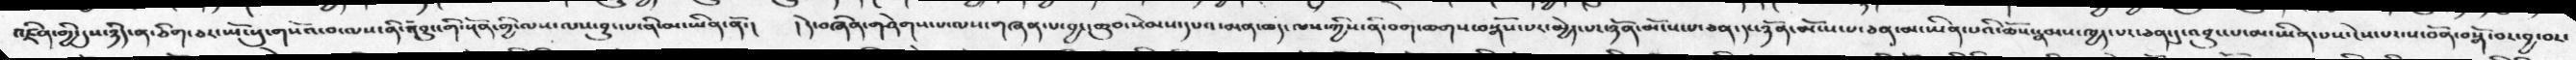འཛིན་གྱི་དུས་ཉིད་ན་ཅིག་ཅར་ཡོངསུ་གསོའ་བ་ལས་ནི་འབྱུང་གི་སྔོན་གྱི་ལས་ལས་བྱུང་པ་ནི་མ་ཡིན་ནོ་།   ། དེ་བཞིན་གཤེགས་པ་ལས་གཞན་པ་བྱང་ཆུབ་སེམས་དཔའ་མན་ཆད་ལས་ཀྱིས་ནི་བག་ཆགས་བསྒོས་པར་མྱེད་པར་ཉོན་མོངས་པ་ཅན་དང་ཉོན་མོངས་པ་ཅན་མ་ཡིན་པའི་ཆོས་རྣམས་ཁྱད་པར་ཅན་དུ་འབྱུང་པ་མ་ཡིན་པས་ངེས་པར་ས་བོན་བསྒོ་བར་བྱ་བར་
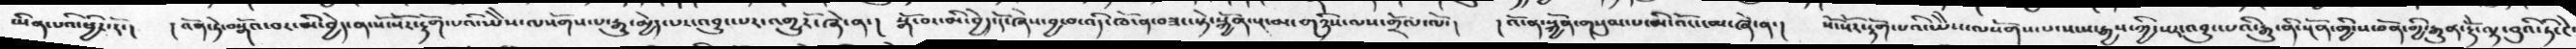ཡིན་པའི་ཕྱིར་རོ་།  །འོན་ཏེ་བསྒོའ་བར་མི་བྱེད་ན་སོ་སོར་རྟོགཔའི་ཡཻས་ལསོགས་པ་རྒྱུ་མྱེད་པར་འབྱུང་པར་འགྱུརོ་ཞེ་ན་།  །སྒོ་བར་མི་བྱེད་དོ་ཞེས་བྱ་བ་འདི་ཁོ་ན་བཟང་སྟེ་སྐྱོན་སྔ་མ་གཉིས་ལས་གྲོལ་ལོ་།   །འོ་ན་སྐྱོན་གསུམ་པ་མི་འོང་ངམ་ཞེ་ན་།  སོ་སོར་རྟོག་པའི་ཡཻས་ལསོགས་པ་སངས་རྒྱས་ཀྱི་སར་འབྱུང་པའི་རྒྱུ་ནི་སྔོན་གྱི་ས་བོན་གྱི་རྒྱུན་རྡོེ་ལྟ་བུའི་ཏི་ངེ་
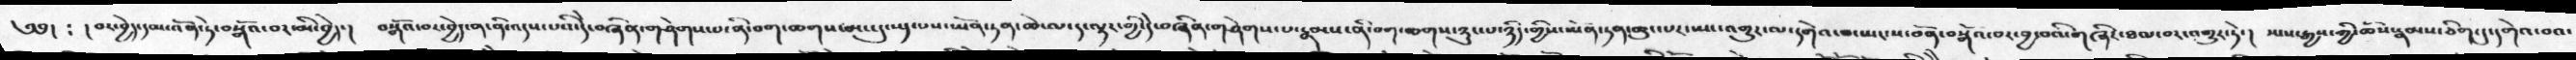༄༅།  ༴ །བར་བྱེད་དམ་འོན་ཏེ་བསྒོའ་བར་མི་བྱེད་།  བསྒོའ་བར་བྱེད་ན་ནི་འདས་པའི་དེ་བཞིན་གཤེགས་པ་ནི་བག་ཆགས་མང་དུ་སད་པས་ཡོན་ཏན་ཆེ་ལ་ད་ལྟར་གྱི་དེ་བཞིན་གཤེགས་པ་རྣམས་ནི་བག་ཆགས་ཉུང་པ་ཉིད་གྱིས་ཡོན་ཏན་ཆུང་པར་ཡང་འགྱུར་ལ་དགེའ་བ་ཡང་ས་བོན་བསྒོའ་བར་བྱ་བའི་གཞིར་ཐལ་བར་འགྱུར་ཏེ་།  སངས་རྒྱས་ཀྱི་ཆོས་རྣམས་ཅིག་དུ་དགེའ་བའ་
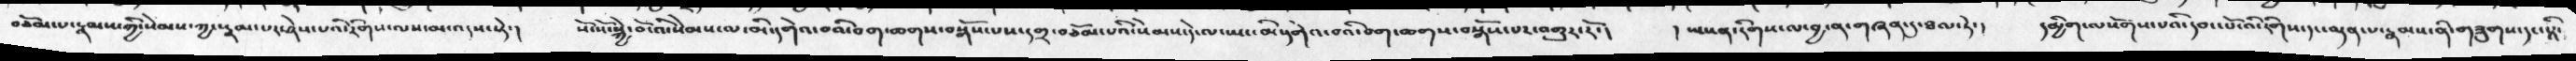བཅོམ་པ་རྣམས་ཀྱི་སེམས་ཀྱང་རྣམ་པར་ཤེས་པའི་རིགས་ལས་མ་འདས་སྟེ་།  སོ་སོ་སྐྱེ་བོ་འི་སེམས་ལ་མི་དགེའ་བའི་བག་ཆགས་བསྒོས་པས་དགྲ་བཅོམ་པའི་སེམས་དེ་ལ་ཡང་མི་དགེའ་བའི་བག་ཆགས་བསྒོས་པར་འགྱུར་རོ་།   །ཡང་ན་རིགས་ལ་བྱ་ན་གཞན་དུ་ཐལ་ཏེ་།  དམྱིག་ལསོགས་པའི་དབང་པོ་འི་རིགས་དང་ལྡན་པ་རྣམས་ནི་གཟུགས་དང་སྟི་
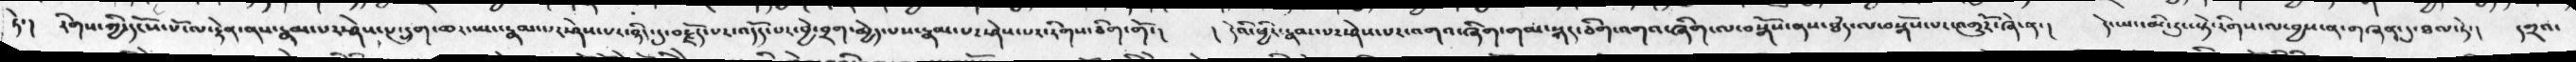ཏེ་།   རིགས་ཀྱི་དངོས་པོ་ལ་རྟེན་ནས་རྣམ་པར་ཤེས་པ་དྲུག་ཆར་ཡང་རྣམ་པར་ཤེས་པར་ཉིད་དུ་བརྗོད་པར་འདོད་པར་བྱེ་བྲག་མྱེད་པས་རྣམ་པར་ཤེས་པར་རིགས་ཅིག་གོ་།    །དེའི་ཕྱིར་རྣམ་པར་ཤེས་པར་འགའ་ཞིག་གམ་སྐད་ཅིག་འགའ་ཞིག་ལ་བསྒོས་ནས་ཐཾད་ལ་བསྒོས་པར་འགྱུརོ་ཞེ་ན་།  དེ་ཡང་མི་རུང་སྟེ་རིགས་ལ་བྱས་ན་གཞན་དུ་ཐལ་ཏེ་།  དགྲའ་
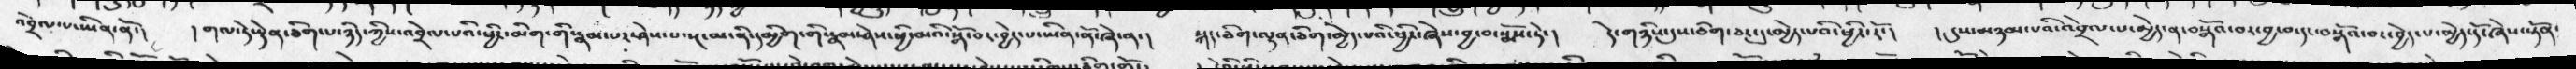འབྲེལ་པ་ཡིན་ནོ་།  །གལ་ཏེ་རྟེན་ཅིག་པ་ཉིད་ཀྱིས་འབྲེལ་པའི་ཕྱིར་མིག་གི་རྣམ་པར་ཤེས་པ་སྔ་མ་ནི་དམྱིག་གི་རྣམ་ཤེས་ཕྱི་མའི་སྒོ་བར་བྱེད་པ་ཡིན་ནོ་ཞེ་ན་།   སྐད་ཅིག་ལྷན་ཅིག་མྱེད་པའི་ཕྱིར་ཞེས་བྱ་བ་སྨོས་ཏེ་།  དེ་གཉིས་དུས་ཅིག་ཅར་དུ་མྱེད་པའི་ཕྱིར་རོ་།  །དུས་མཉམ་པའི་འབྲེལ་པ་མེད་ན་བསྒོའ་བར་བྱ་བ་དང་བསྒོའ་བར་བྱེད་པ་མྱེད་དོ་ཞེས་སྟོན་
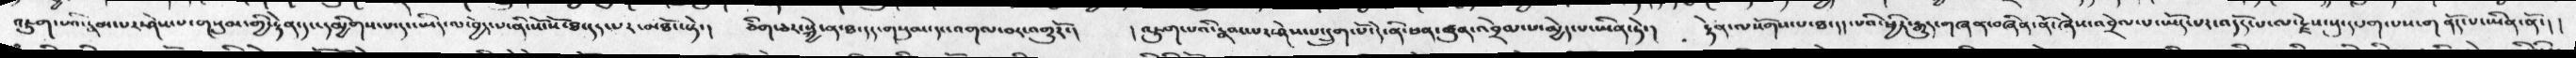འཇུག་པའི་རྣམ་པར་ཤེས་པ་གསུམ་གྱི་རྟེན་དང་དམྱིགས་པ་དང་ཡིད་ལ་བྱེད་པ་ནི་སོ་སོ་ཐ་དད་པར་མཐོང་སྟེ་།  ཅིག་ཅར་སྐྱེ་ན་ཐ་དད་གསུམ་དང་འགལ་བར་འགྱུརོ་།  །འཇུག་པའི་རྣམ་པར་ཤེས་པ་དྲུག་པོ་དེ་ནི་ཕན་ཚུན་འབྲེལ་པ་མྱེད་པ་ཡིན་ཏེ་།   རྟེན་ལསོགས་པ་ཐ་དད་པའི་ཕྱིར་རྒྱུད་གཞན་བཞིན་ནོ་ཞེས་འབྲེལ་པ་ཡོད་པར་འདོད་པ་ལ་རྗེས་སུ་དཔག་པས་གནོད་པ་ཡིན་ནོ་།།
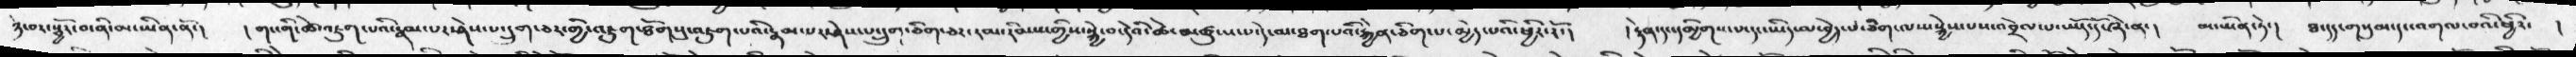ཉེ་བར་སྦྱོར་བ་ནི་མ་ཡིན་ནོ་།   །གང་གི་ཚེ་འཇུག་པའི་རྣམ་པར་ཤེས་པ་དྲུག་ཅར་གྱི་འཇུག་ཐོགསུ་འཇུག་པའི་རྣམ་པར་ཤེས་པ་དྲུག་ཅིག་ཅར་རམ་རིམས་གྱིས་སྐྱེ་བ་དེའི་ཚེ་མཚུངས་པ་དེ་མ་ཐག་པའི་རྐྱེན་ཅིག་པ་མྱེད་པའི་ཕྱིར་རོ་།   །རྟེན་དང་དམྱིགས་པ་དང་ཡིད་ལ་བྱེད་པ་ཅིག་ལས་སྐྱེས་པས་འབྲེལ་པ་ཡོད་དོ་ཞེ་ན་།  མ་ཡིན་ཏེ་།  ཐ་དད་གསུམ་དང་འགལ་བའི་ཕྱིར་  །
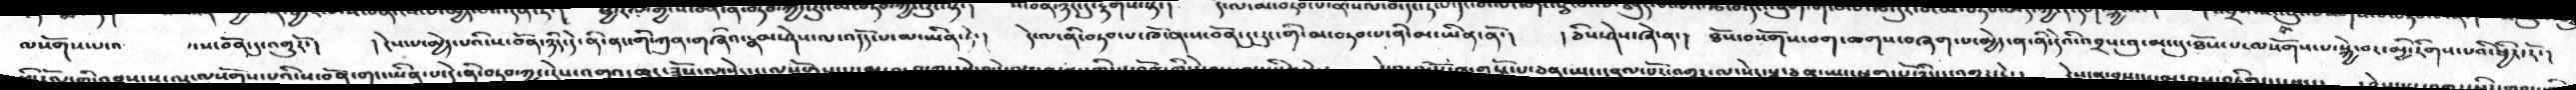ལ་སོགས་པ་འ    ་་ས་བོན་དུ་འགྱུརོ་།   །ངེས་པ་མྱེད་པའི་ས་བོན་ཉིད་དེ་ནི་ནང་གི་ཀུན་གཞིའ་རྣམ་ཤེས་ལ་འདོད་པ་མ་ཡིན་ཏེ་།   དེ་ལ་ནི་བཏབ་པ་ཁོ་ན་ས་བོན་དུ་རུང་གི་མ་བཏབ་པ་ཡིན་ནོ་།   །ཅིས་ཤེས་ཞེ་ན་།   ཐོས་བསོགས་བག་ཆགས་བཞག་པ་མྱེད་ན་ནི་དེའི་འབྲས་བུ་མང་དུ་ཐོས་པ་ལསོགས་པ་སྐྱེ་བར་མྱི་རིགས་པའི་ཕྱིར་རོ་།
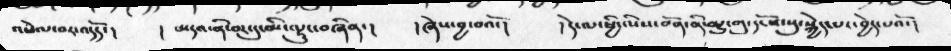འཕེལ་བར་འདོད་།   ། མདའ་ནི་བར་དུ་མི་ལྡུང་བཞིན་།   །ཞེས་བྱ་བའོ་།     །དེ་ལ་ཕྱི་འི་ས་བོན་ནི་མྱུ་གུ་དངོས་སུ་སྐྱེད་པར་བྱེད་པའོ་།
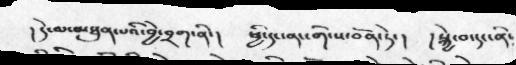།དེ་མ་མཐུན་པའི་བྱེ་བྲག་ནི་།  ཕྱི་དང་ནང་གི་ས་བོན་ཏེ་།   །སྐྱེ་བ་དང་ནི༴
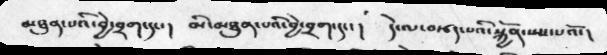མཐུན་པའི་བྱེ་བྲག་དང་།   མི་མཐུན་པའི་བྱེ་བྲག་དང་།  དེ་ལ་བརྩད་པའི་སྐྱོན་སྤང་པའོ་།
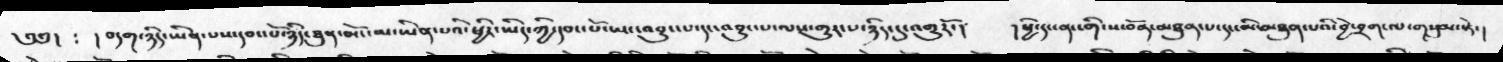༄༅།  ༴  །བདག་ཉིད་ཡིན་པས་དབང་པོ་ཉིད་ཐུན་མོང་མ་ཡིན་པའི་ཕྱིར་ཡིད་ཀྱི་དབང་པོ་ཡང་འབྱུང་པ་དང་འབྱུང་པ་ལས་གྱུར་པ་ཉིད་དུ་འགྱུརོ་།  །ཕྱི་དང་ནང་གི་ས་བོན་མཐུན་པ་དང་མི་མཐུན་པའི་བྱེ་བྲག་ལ་གསུམ་སྟེ་།
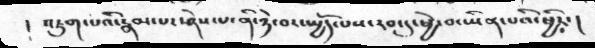། འཇུག་པའི་རྣམ་པར་ཤེས་པ་ནི་ཉེ་བར་སྤྱོད་པས་རབ་དུ་ཕྱེ་བ་ཡིན་པའི་ཕྱིར་།
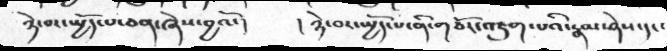ཉེ་བར་སྤྱོད་པ་ཅན་ཞེས་བྱའོ་།   །ཉེ་བར་སྤྱོད་པ་ནི་གཙོར་འཇུག་པའི་རྣམ་ཤེས་དང་
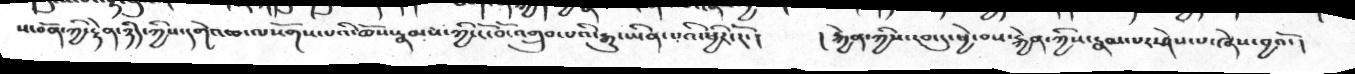ས་བོན་ཀྱི་རྟེན་ཉིད་ཀྱིས་དགེའ་བ་ལསོགས་པའི་ཆོས་རྣམས་ཀྱི་ངོ་བོ་འགྲུབ་པའི་རྒྱུ་ཡིན་པའི་ཕྱིར་རོ་།   །རྐྱེན་ཀྱིས་རབ་དུ་ཕྱེ་བས་རྐྱེན་ཀྱིས་རྣམ་པར་ཤེས་པ་ཞེས་བྱའོ་།
